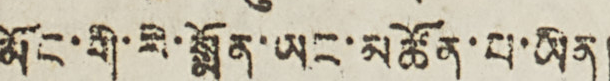མོང་གི་རེ་སྨོན་ཡང་མཚོན་པ་ཡིན།
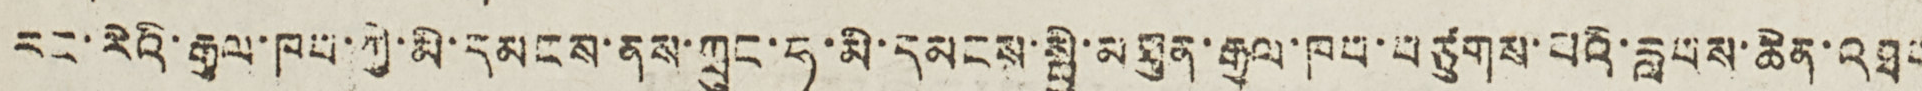རང་རེའི་རྒྱལ་ཁབ་ཀྱི་མི་དམངས་ནས་ཀྲུང་ཧྭ་མི་དམངས་སྤྱི་མཐུན་རྒྱལ་ཁབ་བཙུགས་པའི་རླབས་ཆེན་འཐབ
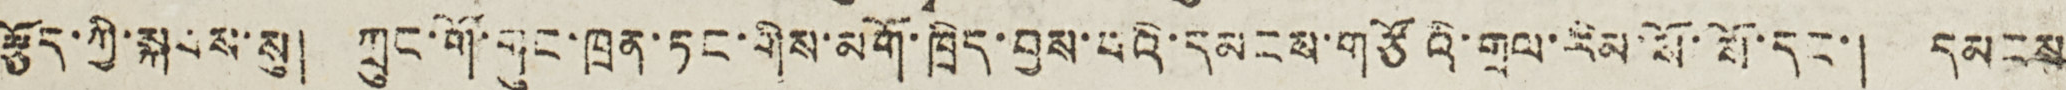རྩོད་ཀྱི་སྐབས་སུ། ཀྲུང་གོ་གུང་ཁྲན་ཏང་གིས་མགོ་ཁྲིད་བྱས་པའི་དམངས་གཙོའི་གྲལ་རིམ་སོ་སོ་དང་། དམངས
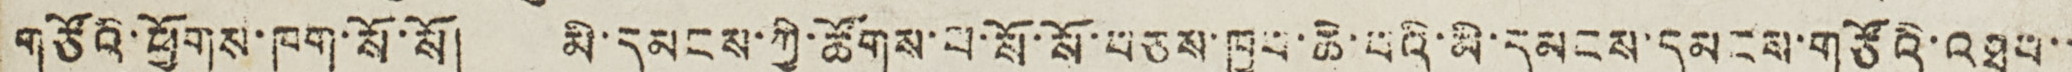གཙོའི་ཕྱོགས་ཁག་སོ་སོ། མི་དམངས་ཀྱི་ཚོགས་པ་སོ་སོ་བཅས་ཁྱབ་ཆེ་བའི་མི་དམངས་དམངས་གཙོའི་འཐབ་་
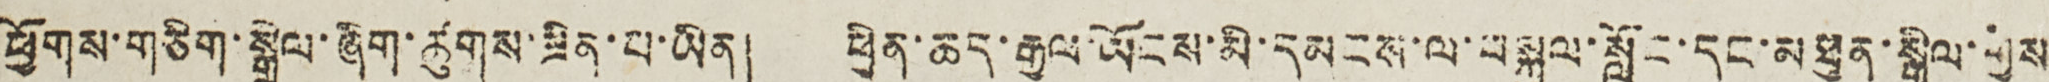ཕྱོགས་གཅིག་སྒྲིལ་ཞིག་ཚུགས་ཟིན་པ་ཡིན། ཕྱིན་ཆད་རྒྱལ་ཡོངས་མི་དམངས་ལ་བསྐུལ་སློང་དང་མཐུན་སྒྲིལ་གྱིས་
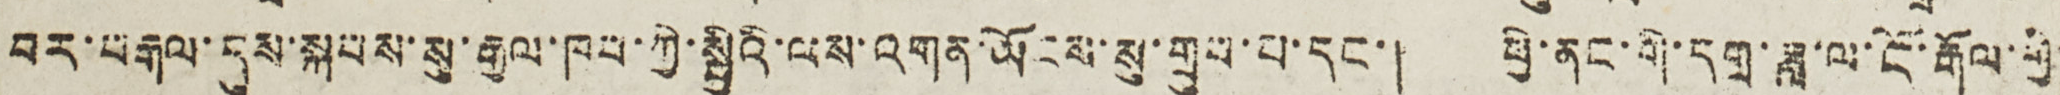བར་བརྒལ་དུས་སྐབས་སུ་རྒྱལ་ཁབ་ཀྱི་སྤྱིའི་ལས་འགན་ཡོངས་སུ་གྲུབ་པ་དང་། ཕྱི་ནང་གི་དགྲ་ཟླ་ལ་ངོ་རྒོལ་གྱི་
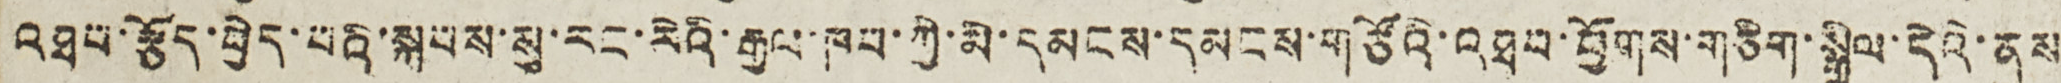འཐབ་རྩོད་བྱེད་པའི་སྐབས་སུ་རང་རེའི་རྒྱལ་ཁབ་ཀྱི་མི་དམངས་དམངས་གཙོའི་འཐབ་ཕྱོགས་གཅིག་སྒྲིལ་དེའི་ནུས་
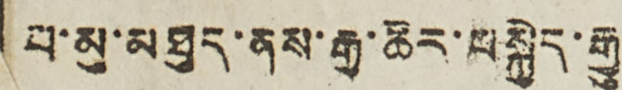པ་མུ་མཐུད་ནས་རྒྱ་ཆེར་བསྐྱེད་རྒྱུ།
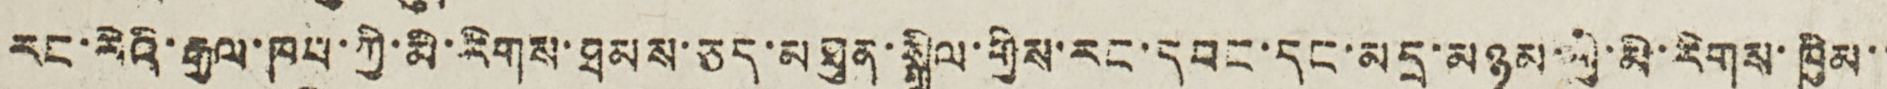རང་རེའི་རྒྱལ་ཁབ་ཀྱི་མི་རིགས་ཐམས་ཅད་མཐུན་སྒྲིལ་གྱིས་རང་དབང་དང་མདྲ་མཉམ་ཀྱི་མི་རིགས་ཁྱིམ་་
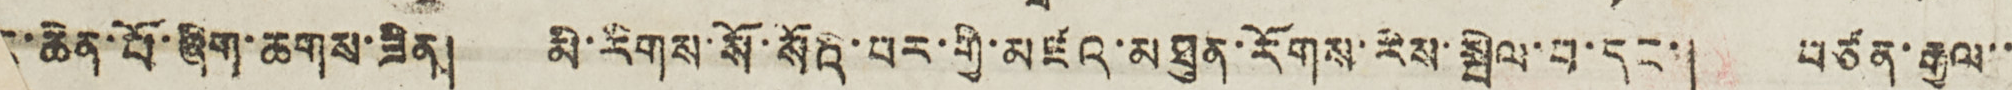་ཆེན་པོ་ཞིག་ཆགས་ཟིན། མི་རིགས་སོ་སོའི་བར་གྱི་མཛའ་མཐུན་རོགས་རིས་སྤེལ་བ་དང་། བཙན་རྒྱལ་་
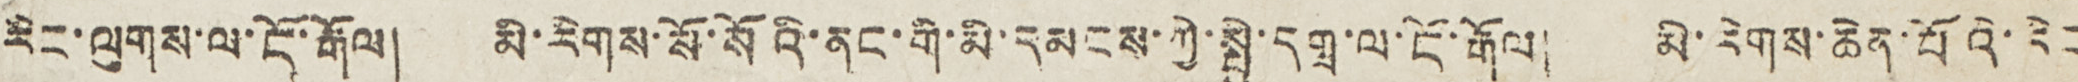རིང་ལུགས་ལ་ངོ་རྒོལ། མི་རིགས་སོ་སོའི་ནང་གི་མི་དམངས་ཀྱི་སྤྱི་དགྲ་ལ་ངོ་རྒོལ། མི་རིགས་ཆེན་པོའི་རིང
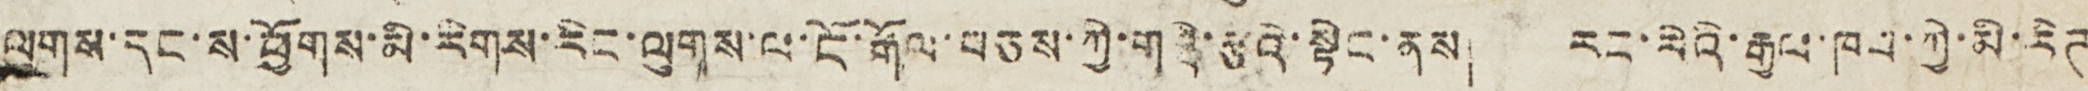ལུགས་དང་ས་ཕྱོགས་མི་རིགས་རིང་ལུགས་ལ་ངོ་རྒོལ་བཅས་ཀྱི་གཞི་རྩའི་སྟེང་ནས། རང་རེའི་རྒྱལ་ཁབ་ཀྱི་མི་རིཊ
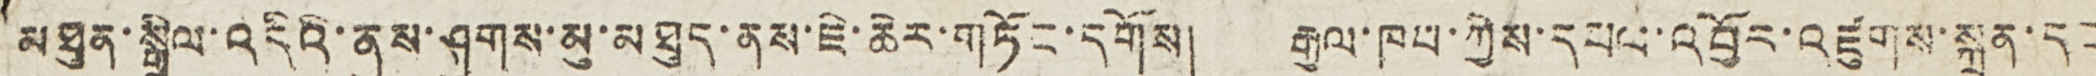མཐུན་སྒྲིལ་འདིའི་ནུས་ཤུགས་མུ་མཐུད་ནས་ཇི་ཆེར་གཏོང་དགོས། རྒྱལ་ཁབ་ཀྱིས་དཔལ་འབྱོར་འཛུགས་སྐྲུན་དང
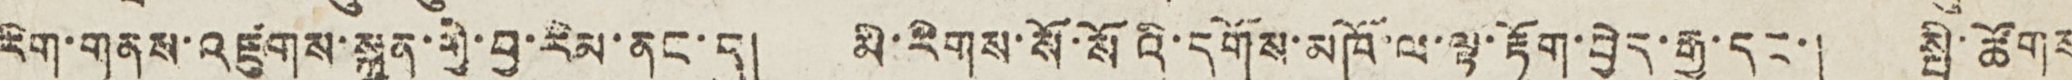རིག་གནས་འཛུགས་སྐྲུན་གྱི་བྱ་རིམ་ནང་དུ། མི་རིགས་སོ་སོའི་དགོས་མཁོ་ལ་ལྟ་རྟོག་བྱེད་རྒྱུ་དང་། སྤྱི་ཚོགས
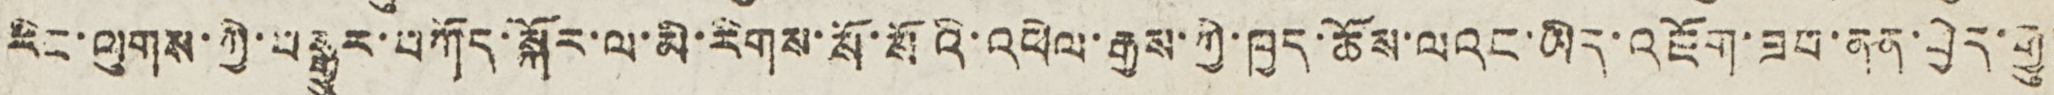རིང་ལུགས་ཀྱི་བསྒྱུར་བཀོད་སྐོར་ལ་མི་རིགས་སོ་སོའི་འཕེལ་རྒྱས་ཀྱི་ཁྱད་ཆོས་ལའང་ཡིད་འཇོག་ཟབ་ནན་བྱེད་རྒྱུ།
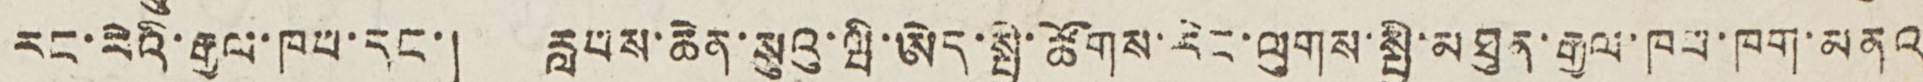རང་རེའི་རྒྱལ་ཁབ་དང་། རླབས་ཆེན་སུའུ་ཝི་ཨེད་སྤྱི་ཚོགས་རིང་ལུགས་སྤྱི་མཐུན་རྒྱལ་ཁབ་ཁག་མནའ
